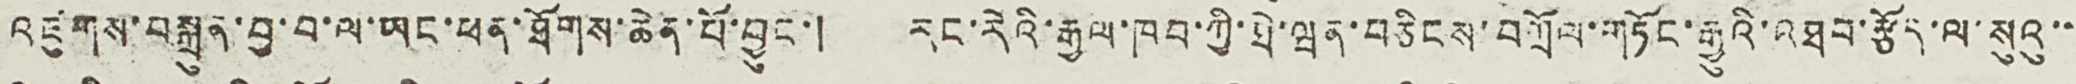འཛུགས་བསྐྲུན་བྱ་བ་ལ་ཡང་ཕན་ཐོགས་ཆེན་པོ་བྱུང་། རང་རེའི་རྒྱལ་ཁབ་ཀྱི་ཐེ་ཝན་བཅིངས་བཀྲོལ་གཏོང་རྒྱུའི་འཐབ་རྩོད་ལ་སུའུ་་
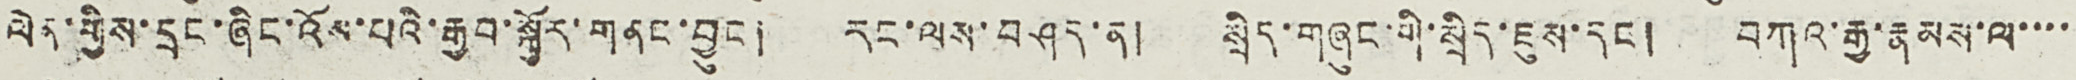ལེན་གྱིས་དྲང་ཞིང་འོས་པའི་རྒྱབ་སྐྱོར་གནང་བྱུང ། རང་ལས་བཤད་ན། སྲིད་གཞུང་གི་སྲིད་ཇུས་དང ། བཀའ་རྒྱ་རྣམས་ལ་་་་
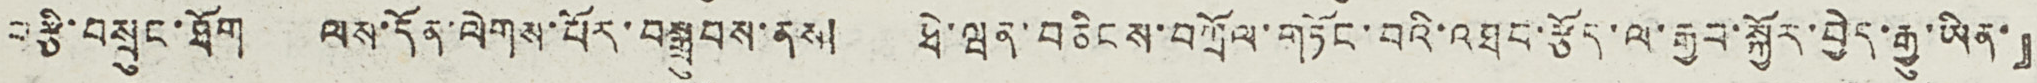བརྩི་བསྲུང་ཐོག ལས་དོན་ལེགས་པོར་བསྒྲུབས་ནས། ཐེ་ཝན་བཅིངས་བཀྲོལ་གཏོང་བའི་འཐང་རྩོད་ལ་རྒྱབ་སྐྱོར་བྱེད་རྒྱུ་ཡིན་』
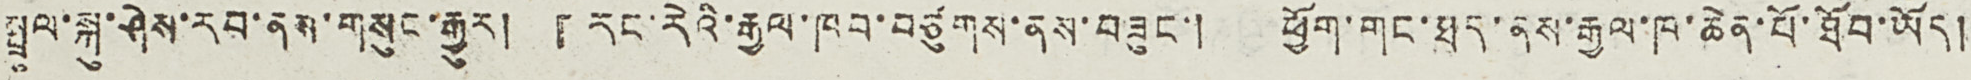སྤྲུལ་སྐུ་ཤེས་རབ་ནས་གསུང་རྒྱུར། 『རང་རེའི་རྒྱལ་ཁབ་བཙུགས་ནས་བཟུང་། ཕྱོག་གང་ཐད་ནས་རྒྱལ་ཁ་ཆེན་པོ་ཐོབ་ཡོད།
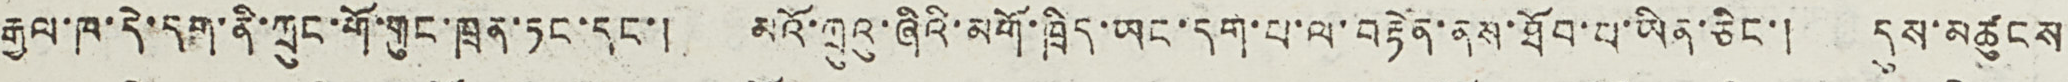རྒྱལ་ཁ་དེ་དག་ནི་ཀྲུང་གོ་གུང་ཁྲན་ཏང་དང་། མའོ་ཀྲུའུ་ཞིའི་མགོ་ཁྲིད་ཡང་དག་པ་ལ་བརྟེན་ནས་ཐོབ་པ་ཡིན་ཅིང་། དུས་མཚུངས
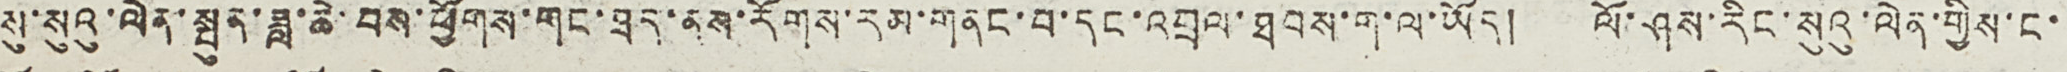སུ་སུའུ་ལེན་སྤུན་ཟླ་ཆེ་བས་ཕྱོགས་གང་ཐད་ནས་རོགས་རམ་གནང་བ་དང་འབྲལ་ཐབས་ག་ལ་ཡོད། ལོ་ཤས་རིང་སུའུ་ལེན་གྱིས་ང་
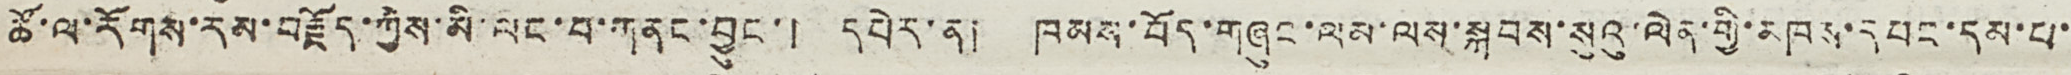ཚོ་ལ་རོགས་རམ་བརྗོད་ཀྱིས་མི་ལང་བ་གནང་བྱུང་། དཔེར་ན། ཁམས་བོད་གཞུང་ལམ་ལས་སྐབས་སུའུ་ལེན་གྱི་མཁས་དབང་དམ་པ་
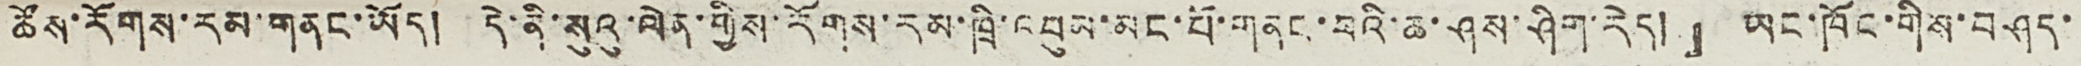ཚོས་རོགས་རམ་གནང་ཡོད། དེ་ནི་སུའུ་ལེན་གྱིས་རོགས་རམ་ཁྲི་འབུམ་མང་པོ་གནང་བའི་ཆ་ཤས་ཤིག་རེད།』 ཡང་ཁོང་གིས་བཤད་
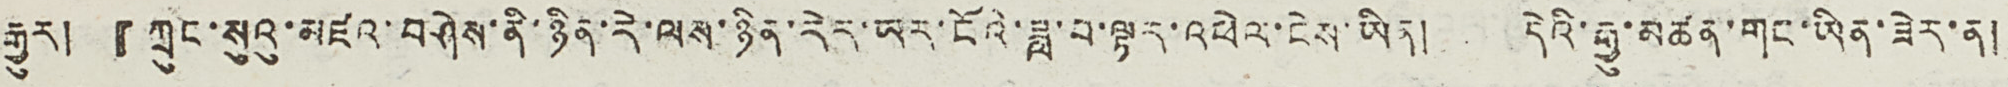རྒྱུར། 『ཀྲུང་སུའུ་མཛའ་བཤེས་ནི་ཉིན་རེ་ལས་ཉིན་རེར་ཡར་ངོའི་ཟླ་བ་ལྟར་འཕེལ་ངེས་ཡིན། དེའི་རྒྱུ་མཚན་གང་ཡིན་ཟེར་ན།
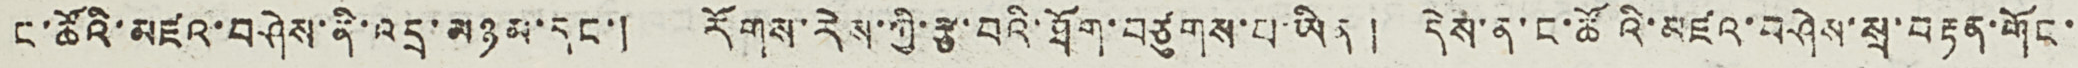ང་ཚོའི་མཛའ་བཤེས་ནི་འདྲ་མཉམ་དང་། རོགས་རེས་ཀྱི་རྩ་བའི་ཐོག་བཙུགས་པ་ཡིན ། དེས་ན་ང་ཚོའི་མཛའ་བཤེས་སྲ་བརྟན་གོང་
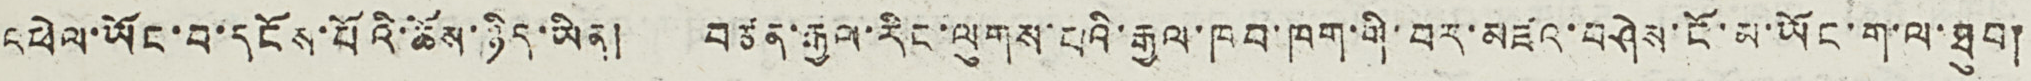འཕེལ་ཡོང་བ་དངོས་པོའི་ཆོས་ཉིད་ཡིན། བཙན་རྒྱལ་རིང་ལུགས་པའི་རྒྱལ་ཁབ་ཁག་གི་བར་མཛའ་བཤེས་ངོ་མ་ཡོང་ག་ལ་ཐུབ།
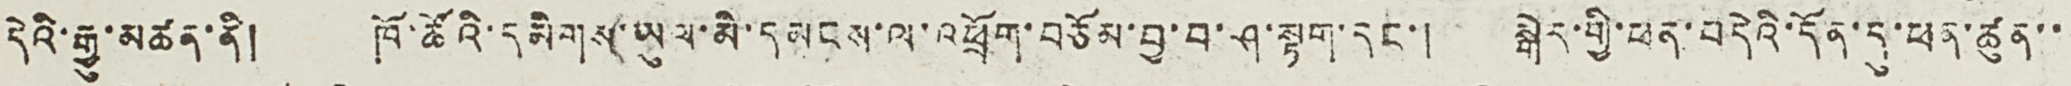དེའི་རྒྱུ་མཚན་ནི། ཁོ་ཚོའི་དམིགས་ཡུལ་མི་དམངས་ལ་འཕྲོག་བཅོམ་བྱ་བ་ཤ་སྟག་དང་། སྒེར་གྱི་ཕན་བདེའི་དོན་དུ་ཕན་ཚུན་་
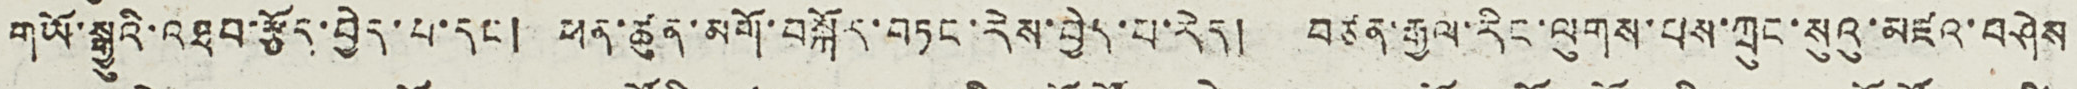གཡོ་སྒྱུའི་འཐབ་རྩོད་བྱེད་པ་དང་། ཕན་ཚུན་མགོ་བསྐོར་བཏང་རེས་བྱེད་པ་རེད། བཙན་རྒྱལ་རིང་ལུགས་པས་ཀྲུང་སུའུ་མཛའ་བཤེས
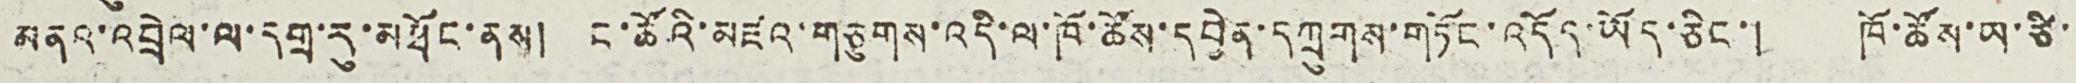མནའ་འབྲེལ་ལ་དགྲ་རུ་མཐོང་ནས། ང་ཚོའི་མཛའ་གཅུགས་འདི་ལ་ཁོ་ཚོས་དབྱེན་དཀྲུགས་གཏོང་འདོད་ཡོད་ཅིང་། ཁོ་ཚོས་ཡ་ཙི་
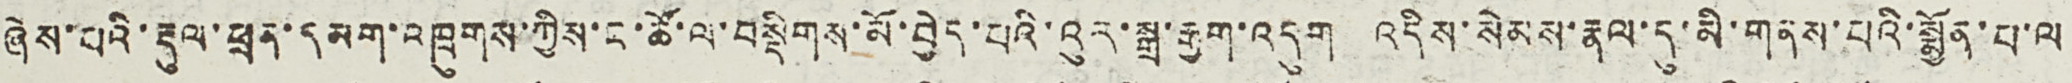ཞེས་པའི་རྡུལ་ཕྲན་དམག་འཁྲུགས་ཀྱིས་ང་ཚོ་ལ་བསྡིགས་མོ་བྱེད་པའི་འུར་སྒྲ་རྒྱག་འདུག འདིས་སེམས་རྣལ་དུ་མི་གནས་པའི་སྨྱོན་པ་ལ
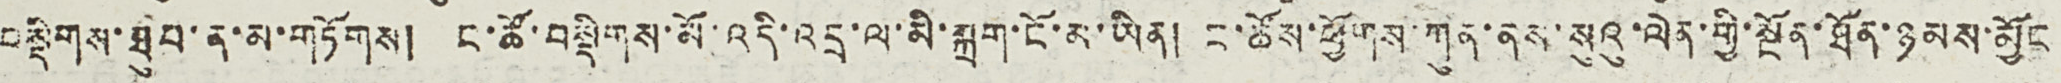བསྡིགས་ཐུབ་ན་མ་གཏོགས། ང་ཚོ་བསྡིགས་མོ་འདི་འདྲ་ལ་མི་སྐྲག་ངོ་མ་ཡིན། ང་ཚོས་ཕྱོགས་ཀུན་ནས་སུའུ་ལེན་གྱི་སྔོན་ཐོན་ཉམས་མྱོང
